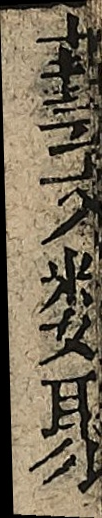藝文類聚
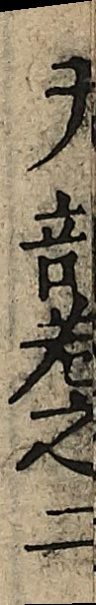天部卷之二
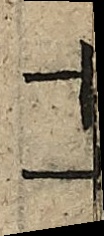十一
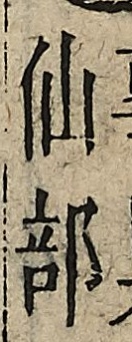仙部
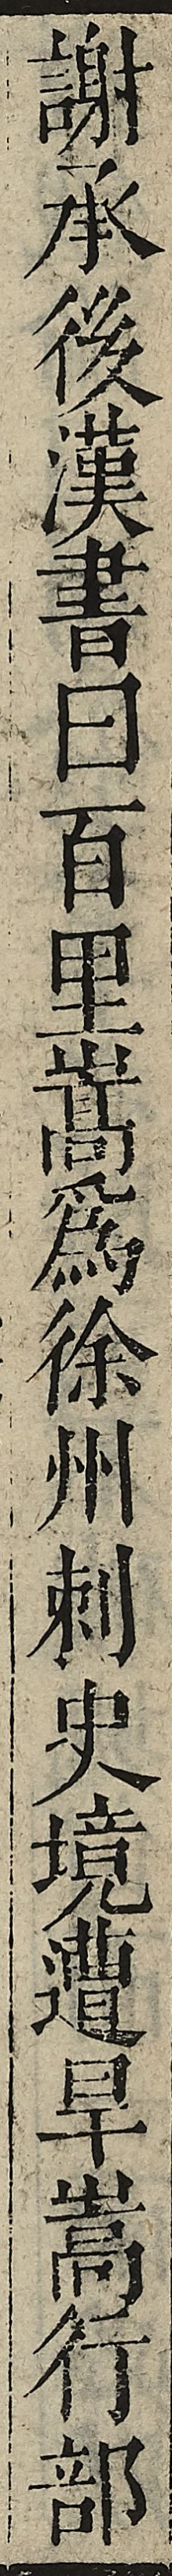謝承後漢書曰百里嵩為徐州刺史境遭旱嵩行部
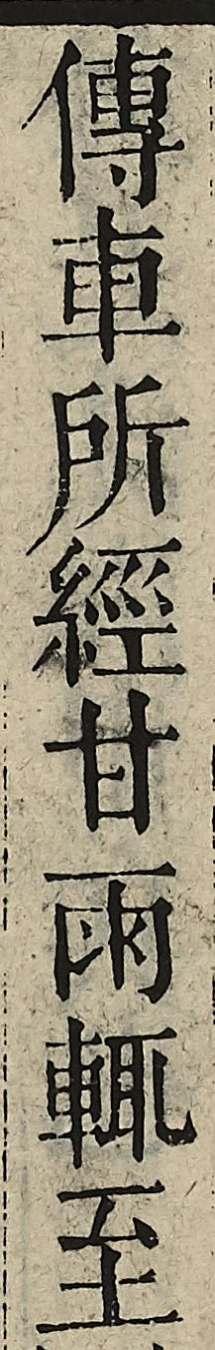傳車所經甘雨輒至
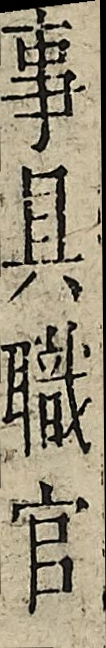事具職官
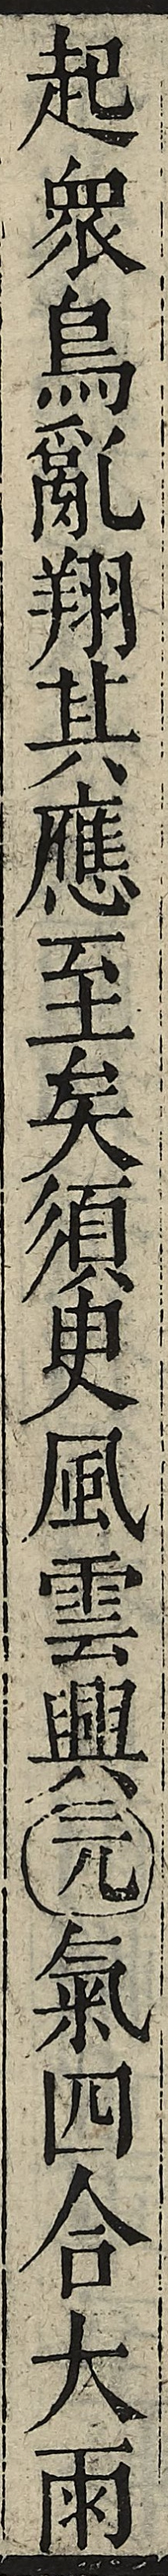起眾鳥亂翔其應至矣須臾風雲興元氣四合大雨
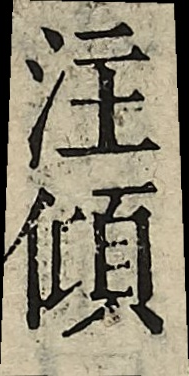注傾
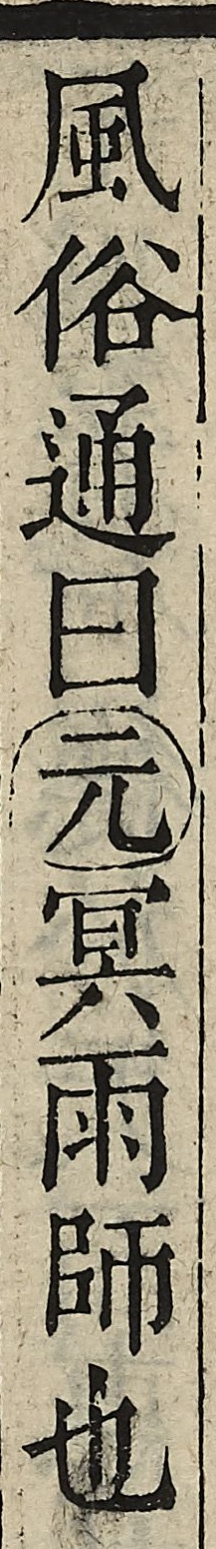風俗通曰元冥雨師也
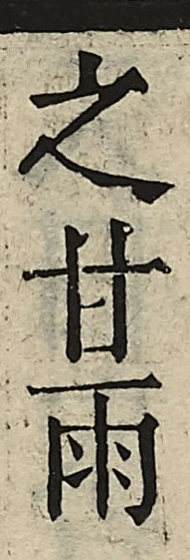之甘雨
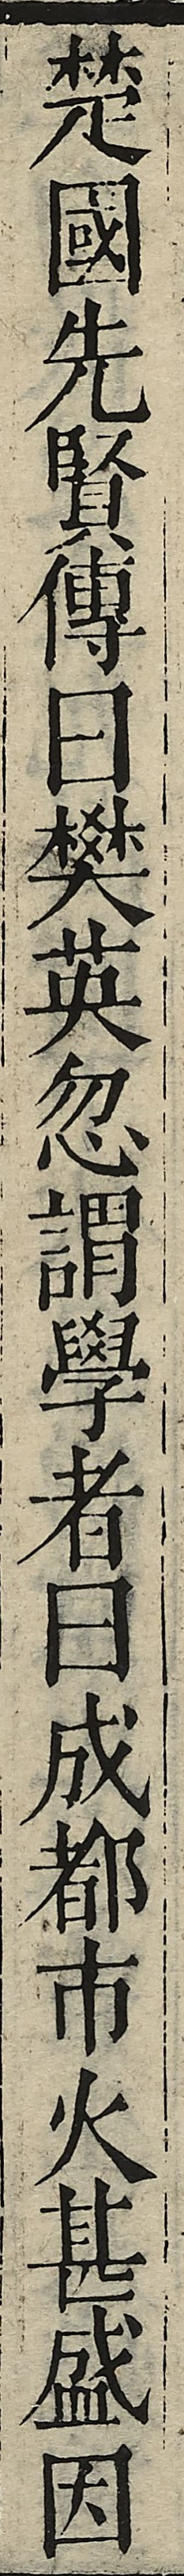楚國先賢傳曰樊英忽謂學者曰成都市火甚盛因
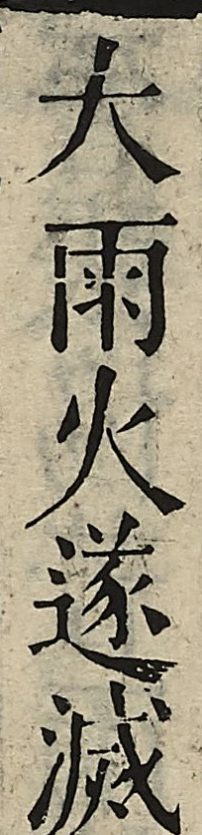大雨火遂滅
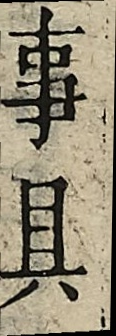事具
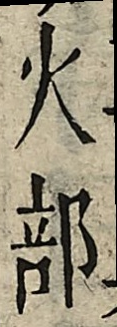火部
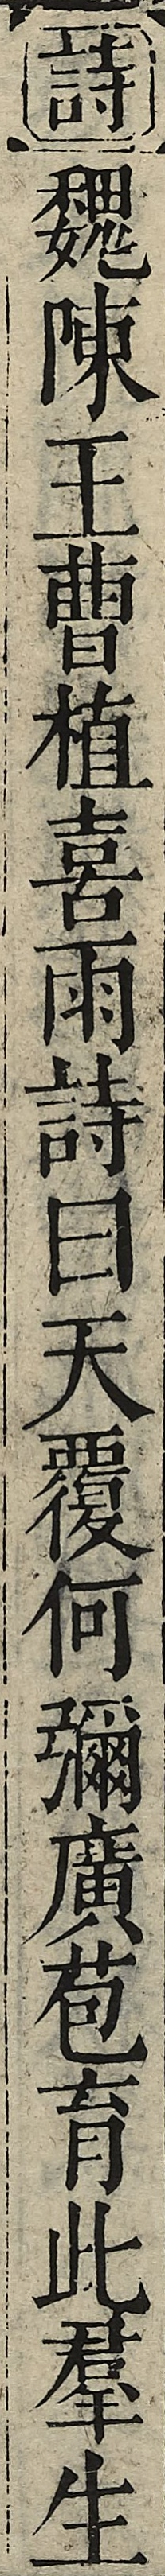詩魏陳王曹植喜雨詩曰天覆何彌廣苞育此羣生
